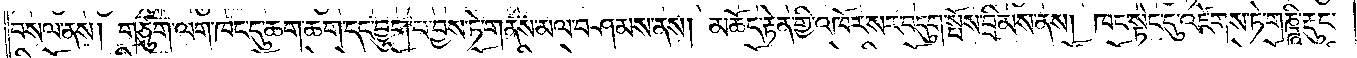བསལ་ནས། གཙུག་ལག་ཁང་དུ་ཆག་ཆག་དང་བྱུག་པ་བྱས་ཏེ་གནས་མལ་བཤམས་ནས། མཆོད་རྟེན་གྱི་འཁོར་སར་བདུག་སྤོས་བྲིམས་ནས། ཁང་སྟེང་དུ་འཛེགས་ཏེ་གཎྜཱི་རྡུང་
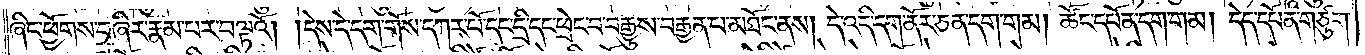ཞིང་ཕྱོགས་བཞིར་རྣམ་པར་བལྟའོ། །དེས་དེ་དག་གོས་དཀར་པོ་དང་དྲི་དང་ཕྲེང་བ་བརྒྱུས་བརྒྱན་པ་མཐོང་ནས། དེ་འདི་དག་ནོར་ཅན་དག་གམ། ཚོང་དཔོན་དག་གམ། དེད་དཔོན་གཙུག་
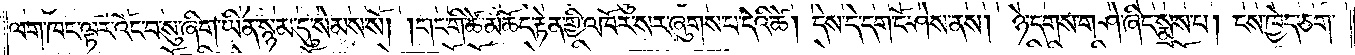ལག་ཁང་ལྟར་འོང་བ་སུ་ཞིག་ཡིན་སྙམ་དུ་སེམས་སོ། །གང་གི་ཚེ་མཆོད་རྟེན་གྱི་འཁོར་སར་ཞུགས་པ་དེའི་ཚེ། དེས་དེ་དག་ངོ་ཤེས་ནས། ཉེ་དགས་གཤེ་ཞིང་སྨྲས་པ། ངས་ཁྱེད་ཅག་
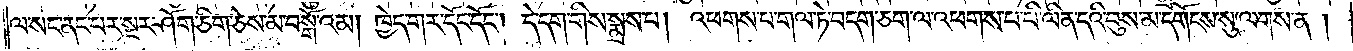ལ་སང་ནང་པར་སྔར་ཤོག་ཅིག་ཅེས་མ་བསྒོ་འམ། ཁྱེད་གར་དོང་དོང༌། དེ་དག་གིས་སྨྲས་པ། འཕགས་པ་གལ་ཏེ་བདག་ཅག་ལ་འཕགས་པ་པི་ལིན་དའི་བུས་མ་དགོངས་སུ་ལགས་ན།
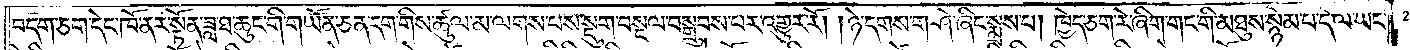བདག་ཅག་དེང་ཁོ་ནར་སྟོན་ཟླ་ཐ་ཆུང་གི་གཡོན་ཅན་དག་གིས་ཚུལ་མ་ལགས་པས་སྡུག་བསྔལ་བསྒྲུབས་པར་འགྱུར་རོ། །ཉེ་དགས་གཤེ་ཞིང་སྨྲས་པ། ཁྱེད་ཅག་རེ་ཞིག་གང་གི་མཐུས་སྙེམ་པ་དེ་ལ་ཡང་
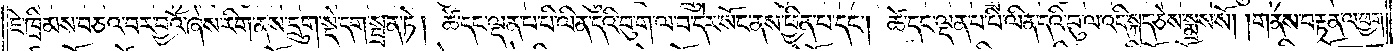ཇེ་ཁྲིམས་བཅའ་བར་བྱའོ་ཞེས་རིག་ནས་དྲུག་སྡེ་དག་སྦྲན་ཏེ། ཚེ་དང་ལྡན་པ་པི་ལིན་དའི་བུ་ག་ལ་བ་དེར་སོང་ནས་ཕྱིན་པ་དང༌། ཚེ་དང་ལྡན་པ་པི་ལིན་དའི་བུ་ལ་འདི་སྐད་ཅེས་སྨྲས་སོ། །གནས་བརྟན་ལ་ཕྱག་
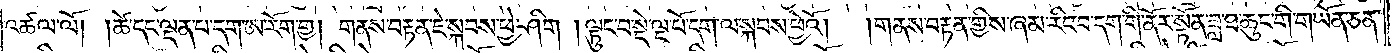འཚལ་ལོ། །ཚེ་དང་ལྡན་པ་དག་ཨ་རོག་གྱ། གནས་བརྟན་ཇེ་སྐབས་ཕྱེ་ཤིག །ལྟུང་བ་སྡེ་ལྔ་པོ་དག་ལ་སྐབས་ཕྱེའོ།   །གནས་བརྟན་གྱིས་ཞམ་རིང་བ་དག་གི་ནོར་སྟོན་ཟླ་ཐ་ཆུང་གི་གཡོན་ཅན་
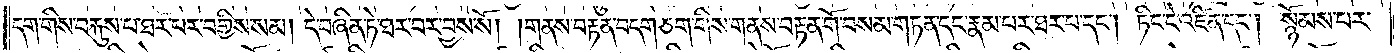དག་གིས་བརྐུས་པ་ཐར་པར་བགྱིས་སམ། དེ་བཞིན་ཏེ་ཐར་བར་བྱས་སོ། །གནས་བརྟན་བདག་ཅག་གིས་གནས་བརྟན་གོ་བསམ་གཏན་དང་རྣམ་པར་ཐར་པ་དང༌། ཏིང་ངེ་འཛིན་དང༌། སྙོམས་པར་
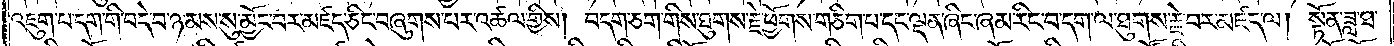འཇུག་པ་དག་གི་བདེ་བ་ཉམས་སུ་མྱོང་བར་མཛད་ཅིང་བཞུགས་པར་འཚལ་གྱིས། བདག་ཅག་གིས་ཐུགས་རྗེ་ཕྱོགས་གཅིག་པ་དང་ལྡན་ཞིང་ཞམ་རིང་བ་དག་ལ་ཐུགས་རྗེ་བར་མཛད་ལ། སྟོན་ཟླ་ཐ་
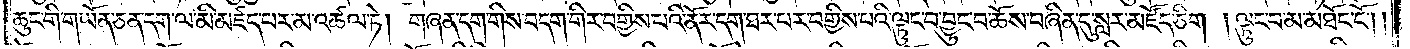ཆུང་གི་གཡོན་ཅན་དག་ལ་མི་མཛད་པར་མ་འཚལ་ཏེ། གཞན་དག་གིས་བདག་གིར་བགྱིས་པའི་ནོར་དག་ཐར་པར་བགྱིས་པའི་ལྟུང་བ་བྱུང་བ་ཆོས་བཞིན་དུ་སླར་མཛོད་ཅིག །ལྟུང་བ་མ་མཐོང་ངོ༌། །
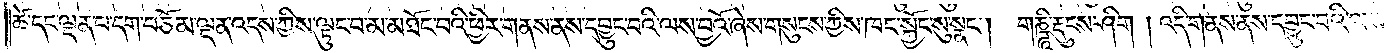ཚེ་དང་ལྡན་པ་དག་བཅོམ་ལྡན་འདས་ཀྱིས་ལྟུང་བ་མ་མཐོང་བའི་ཕྱིར་གནས་ནས་དབྱུང་བའི་ལས་བྱའོ་ཞེས་གསུངས་ཀྱིས་ཁང་སྐྱོང་སུ་སྣང༌། གཎྜཱི་རྡུངས་ཤིག །འདི་གནས་ནས་དབྱུང་བའི་ལས་
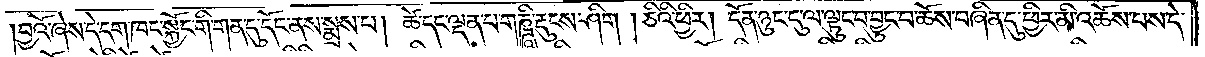བྱའོ་ཞེས་དེ་དག་ཁང་སྐྱོང་གི་གན་དུ་དོང་ནས་སྨྲས་པ། ཚེ་དང་ལྡན་པ་གཎྜཱི་རྡུངས་ཤིག །ཅིའི་ཕྱིར། དོན་ཉུང་དུ་ལ་ལྟུང་བ་བྱུང་བ་ཆོས་བཞིན་དུ་ཕྱིར་མི་འཆོས་པས་དེ་
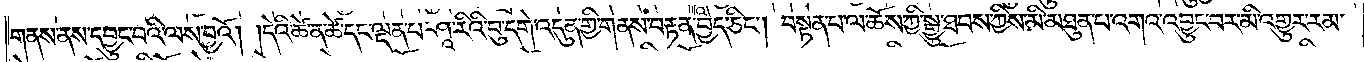གནས་ནས་དབྱུང་བའི་ལས་བྱའོ། །དེའི་ཚེ་ན་ཚེ་དང་ལྡན་པ་ཤཱ་རིའི་བུ་དགེ་འདུན་གྱི་གནས་བརྟན་བྱེད་ཅིང༌། བསྟན་པ་ལ་ཆོས་ཀྱི་སྒྱུ་ཐབས་ཀྱིས་མི་མཐུན་པ་འགའ་འབྱུང་བར་མི་འགྱུར་རམ་
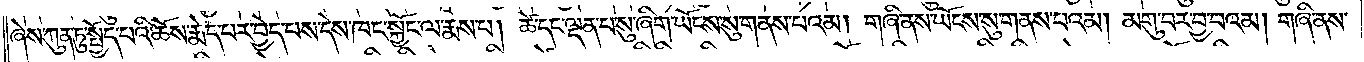ཞེས་ཀུན་ཏུ་སྤྱོད་པའི་ཆོས་རྨེད་པར་བྱེད་པས་དེས་ཁང་སྐྱོང་ལ་རྨས་པ། ཚེ་དང་ལྡན་པ་སུ་ཞིག་ཡོངས་སུ་གནས་པའམ། གཞི་ནས་ཡོངས་སུ་གནས་པའམ། མགུ་བར་བྱ་བའམ། གཞི་ནས་
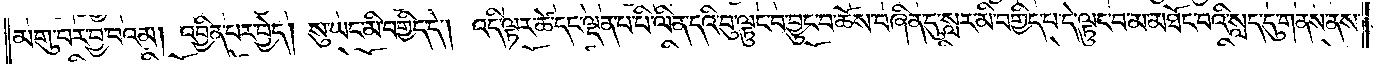མགུ་བར་བྱ་བའམ། འབྱིན་པར་བྱེད། སུ་ཡང་མི་བགྱིད་དེ། འདི་ལྟར་ཚེ་དང་ལྡན་པ་པི་ལིན་དའི་བུ་ལྟུང་བ་བྱུང་བ་ཆོས་བཞིན་དུ་སླར་མི་བགྱིད་པ་དེ་ལྟུང་བ་མ་མཐོང་བའི་སླད་དུ་གནས་ནས་
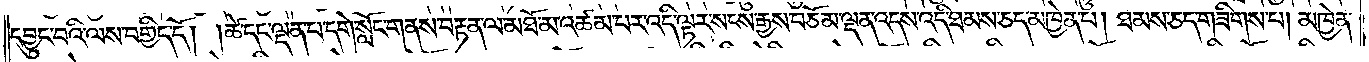དབྱུང་བའི་ལས་བགྱིད་དོ། །ཚེ་དང་ལྡན་པ་དགེ་སློང་གནས་བརྟན་ལ་མཐོ་མ་འཚམ་པར་འདི་ལྟར་སངས་རྒྱས་བཅོམ་ལྡན་འདས་འདི་ཐམས་ཅད་མཁྱེན་པ། ཐམས་ཅད་གཟིགས་པ། མཁྱེན་
